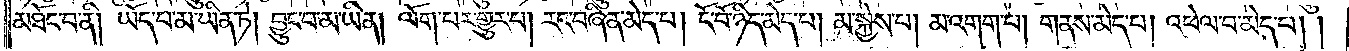མཐོང་བ་ནི། ཡོད་པ་མ་ཡིན་ཏེ། བྱུང་བ་མ་ཡིན། ལོག་པར་གྱུར་པ། རང་བཞིན་མེད་པ། ངོ་བོ་ཉིད་མེད་པ། མ་སྐྱེས་པ། མ་འགག་པ། གནས་མེད་པ། འཕེལ་བ་མེད་པ། །
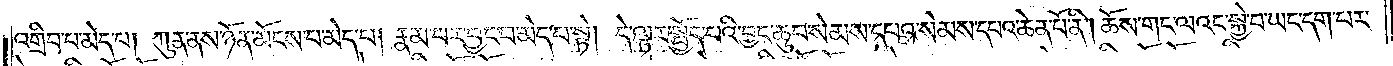འགྲིབ་པ་མེད་པ། ཀུན་ནས་ཉོན་མོངས་པ་མེད་པ། རྣམ་པར་བྱང་བ་མེད་པ་སྟེ། དེ་ལྟར་སྤྱོད་པའི་བྱང་ཆུབ་སེམས་དཔའ་སེམས་དཔའ་ཆེན་པོ་ནི། ཆོས་གང་ལའང་སྐྱེ་བ་ཡང་དག་པར་
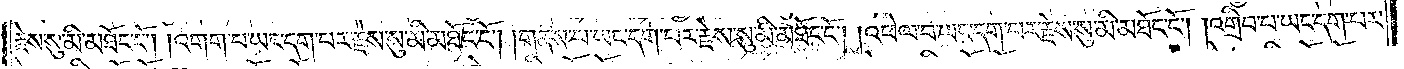རྗེས་སུ་མི་མཐོང་ངོ༌། །འགག་པ་ཡང་དག་པར་རྗེས་སུ་མི་མཐོང་ངོ༌། །གནས་པ་ཡང་དག་པར་རྗེས་སུ་མི་མཐོང་ངོ༌། །འཕེལ་བ་ཡང་དག་པར་རྗེས་སུ་མི་མཐོང་ངོ༌། །འགྲིབ་པ་ཡང་དག་པར་
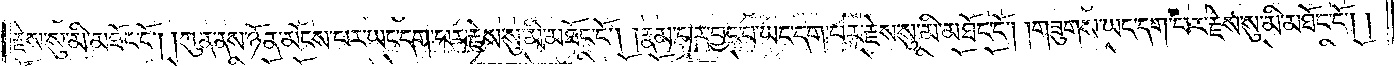རྗེས་སུ་མི་མཐོང་ངོ༌། །ཀུན་ནས་ཉོན་མོངས་པར་ཡང་དག་པར་རྗེས་སུ་མི་མཐོང་ངོ༌། །རྣམ་པར་བྱང་བ་ཡང་དག་པར་རྗེས་སུ་མི་མཐོང་ངོ༌། །གཟུགས་ཡང་དག་པར་རྗེས་སུ་མི་མཐོང་ངོ༌། །
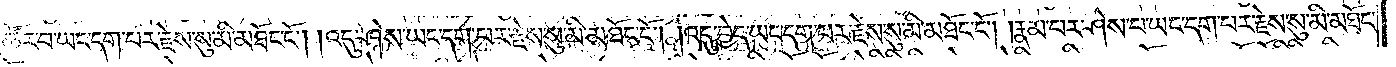ཚོར་བ་ཡང་དག་པར་རྗེས་སུ་མི་མཐོང་ངོ༌། །འདུ་ཤེས་ཡང་དག་པར་རྗེས་སུ་མི་མཐོང་ངོ༌། །འདུ་བྱེད་ཡང་དག་པར་རྗེས་སུ་མི་མཐོང་ངོ༌། །རྣམ་པར་ཤེས་པ་ཡང་དག་པར་རྗེས་སུ་མི་མཐོང་
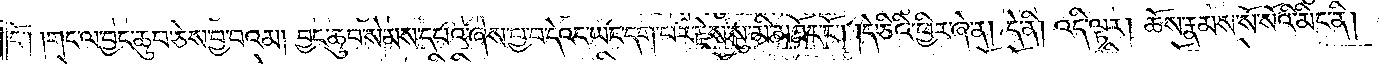ངོ༌། །གང་ལ་བྱང་ཆུབ་ཅེས་བྱ་བའམ། །བྱང་ཆུབ་སེམས་དཔའ་ཞེས་བྱ་བ་དེའང་ཡང་དག་པར་རྗེས་སུ་མི་མཐོང་ངོ༌། །དེ་ཅིའི་ཕྱིར་ཞེ་ན། དེ་ནི། འདི་ལྟར། ཆོས་རྣམས་སོ་སོའི་མིང་ནི།
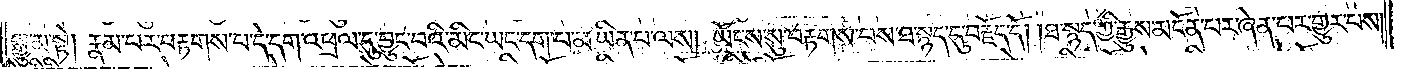སྒྱུ་མ་སྟེ། རྣམ་པར་བརྟགས་པ་དེ་དག་འཕྲལ་དུ་བྱུང་བའི་མིང་ཡང་དག་པ་མ་ཡིན་པ་ལས། ཡོངས་སུ་བརྟགས་པས་ཐ་སྙད་དུ་བརྗོད་དོ། །ཐ་སྙད་ཀྱི་རྒྱུས་མངོན་པར་ཞེན་པར་གྱུར་པས་
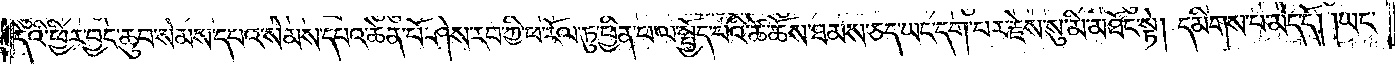དེའི་ཕྱིར་བྱང་ཆུབ་སེམས་དཔའ་སེམས་དཔའ་ཆེན་པོ་ཤེས་རབ་ཀྱི་ཕ་རོལ་ཏུ་ཕྱིན་པ་ལ་སྤྱོད་པའི་ཚེ་ཆོས་ཐམས་ཅད་ཡང་དག་པར་རྗེས་སུ་མི་མཐོང་སྟེ། དམིགས་པ་མེད་དོ། །ཡང་
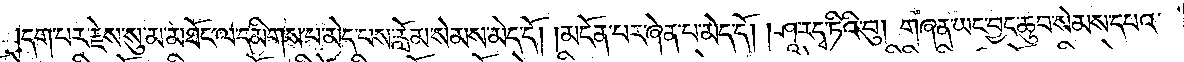དག་པར་རྗེས་སུ་མ་མཐོང་ལ་དམིགས་པ་མེད་པས་རློམ་སེམས་མེད་དོ། །མངོན་པར་ཞེན་པ་མེད་དོ། །ཤཱ་ར་དྭ་ཏིའི་བུ། གཞན་ཡང་བྱང་ཆུབ་སེམས་དཔའ་
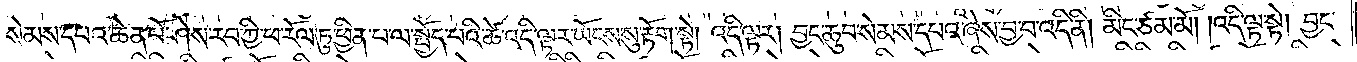སེམས་དཔའ་ཆེན་པོ་ཤེས་རབ་ཀྱི་ཕ་རོལ་ཏུ་ཕྱིན་པ་ལ་སྤྱོད་པའི་ཚེ་འདི་ལྟར་ཡོངས་སུ་རྟོག་སྟེ། འདི་ལྟར། བྱང་ཆུབ་སེམས་དཔའ་ཞེས་བྱ་བ་འདི་ནི། མིང་ཙམ་མོ། །འདི་ལྟ་སྟེ། བྱང་
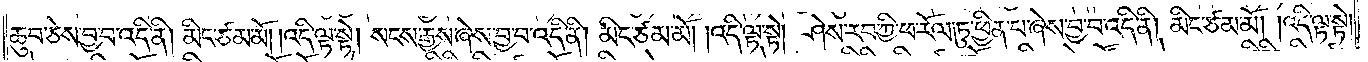ཆུབ་ཅེས་བྱ་བ་འདི་ནི། མིང་ཙམ་མོ། །འདི་ལྟ་སྟེ། སངས་རྒྱས་ཞེས་བྱ་བ་འདི་ནི། མིང་ཙམ་མོ། །འདི་ལྟ་སྟེ། ཤེས་རབ་ཀྱི་ཕ་རོལ་ཏུ་ཕྱིན་པ་ཞེས་བྱ་བ་འདི་ནི། མིང་ཙམ་མོ། །འདི་ལྟ་སྟེ།
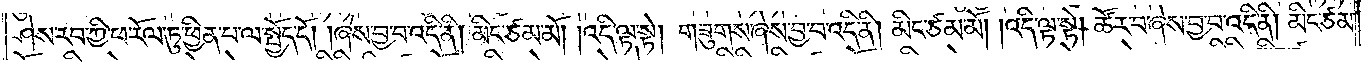ཤེས་རབ་ཀྱི་ཕ་རོལ་ཏུ་ཕྱིན་པ་ལ་སྤྱོད་དོ། །ཞེས་བྱ་བ་འདི་ནི། མིང་ཙམ་མོ། །འདི་ལྟ་སྟེ། གཟུགས་ཞེས་བྱ་བ་འདི་ནི། མིང་ཙམ་མོ། །འདི་ལྟ་སྟེ། ཚོར་བ་ཞེས་བྱ་བ་འདི་ནི། མིང་ཙམ་
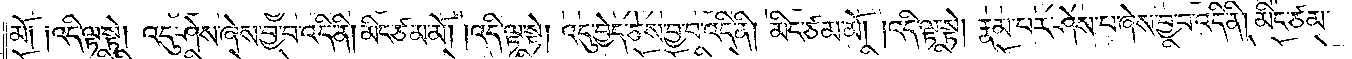མོ༑ ༑འདི་ལྟ་སྟེ། འདུ་ཤེས་ཞེས་བྱ་བ་འདི་ནི། མིང་ཙམ་མོ། །འདི་ལྟ་སྟེ། འདུ་བྱེད་ཅེས་བྱ་བ་འདི་ནི། མིང་ཙམ་མོ། །འདི་ལྟ་སྟེ། རྣམ་པར་ཤེས་པ་ཞེས་བྱ་བ་འདི་ནི། མིང་ཙམ་
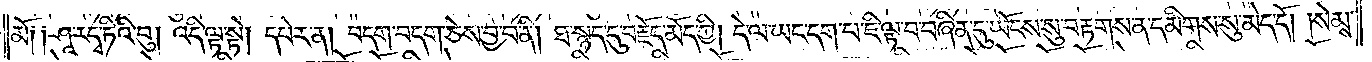མོ༑ ༑ཤཱ་ར་དྭ་ཏིའི་བུ། འདི་ལྟ་སྟེ། དཔེར་ན། བདག་བདག་ཅེས་བྱ་བ་ནི། ཐ་སྙད་དུ་བརྗོད་མོད་ཀྱི། དེ་ལ་ཡང་དག་པ་ཇི་ལྟ་བ་བཞིན་དུ་ཡོངས་སུ་བརྟགས་ན་དམིགས་སུ་མེད་དོ། །སེམས་
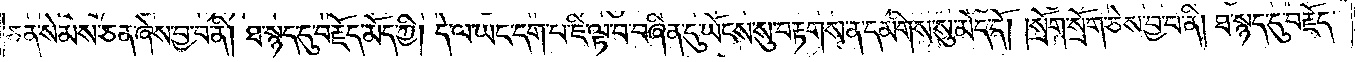ཅན་སེམས་ཅན་ཞེས་བྱ་བ་ནི། ཐ་སྙད་དུ་བརྗོད་མོད་ཀྱི། དེ་ལ་ཡང་དག་པ་ཇི་ལྟ་བ་བཞིན་དུ་ཡོངས་སུ་བརྟགས་ན་དམིགས་སུ་མེད་དོ། །སྲོག་སྲོག་ཅེས་བྱ་བ་ནི། ཐ་སྙད་དུ་བརྗོད་
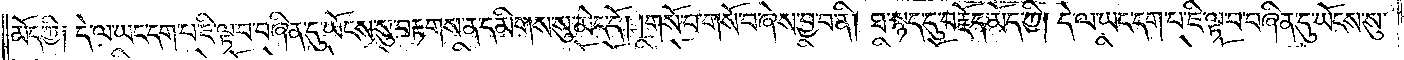མོད་ཀྱི༑ དེ་ལ་ཡང་དག་པ་ཇི་ལྟ་བ་བཞིན་དུ་ཡོངས་སུ་བརྟགས་ན་དམིགས་སུ་མེད་དོ། །གསོ་བ་གསོ་བ་ཞེས་བྱ་བ་ནི། ཐ་སྙད་དུ་བརྗོད་མོད་ཀྱི། དེ་ལ་ཡང་དག་པ་ཇི་ལྟ་བ་བཞིན་དུ་ཡོངས་སུ་
